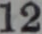12
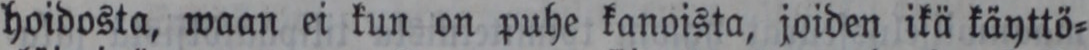hoidosta, waan ei kun on puhe kanoista, joiden ikä käyttö-
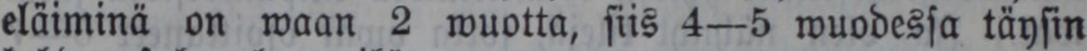eläiminä on waan 2 wuotta, siis 4-5 wuodessa täysin
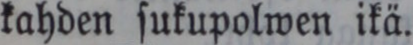kahden sukupolwen ikä.
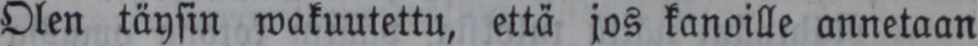Olen täysin wakuutettu, että jos kanoille annetaan
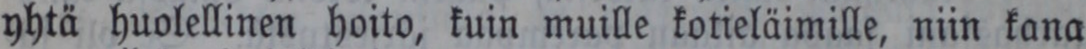yhtä huolellinen hoito, kuin muille kotieläimille, niin kana
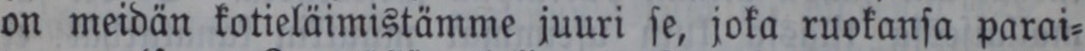on meidän kotieläimistämme juuri se, joka ruokansa parai-
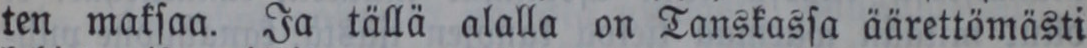ten maksaa. Ja tällä alalla on Tanskassa äärettömästi
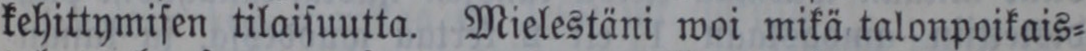kehittymisen tilaisuutta. Mielestäni woi mikä talonpoikais-
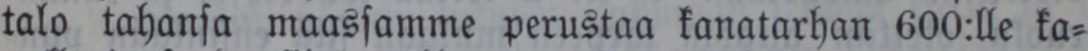talo tahansa maassamme perustaa kanatarhan 600:lle ka-
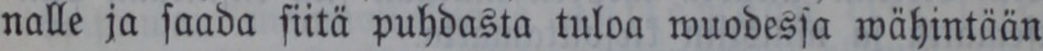nalle ja saada siitä puhdasta tuloa wuodessa wähintään
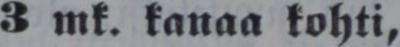3 mk. kanaa kohti,
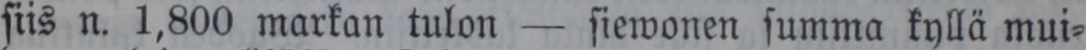siis n. 1,800 markan tulon - siewonen summa kyllä mui-
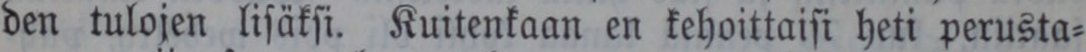den tulojen lisäksi. Kuitenkaan en kehoittaisi heti perusta-
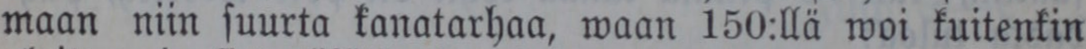maan niin suurta kanatarhaa, waan 150:llä woi kuitenkin
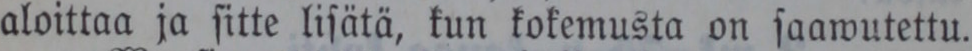aloittaa ja sitte lisätä, kun kokemusta on saawutettu.
